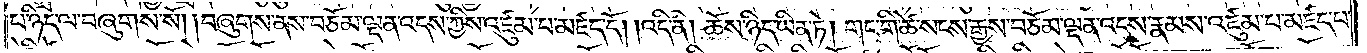པ་ཉིད་ལ་བཞུགས་སོ། །བཞུགས་ནས་བཅོམ་ལྡན་འདས་ཀྱིས་འཛུམ་པ་མཛད་དོ། །འདི་ནི། ཆོས་ཉིད་ཡིན་ཏེ། གང་གི་ཚེ་སངས་རྒྱས་བཅོམ་ལྡན་འདས་རྣམས་འཛུམ་པ་མཛད་པ་
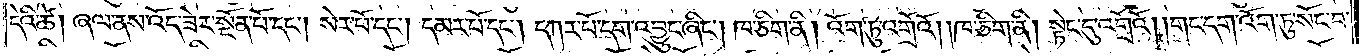དེའི་ཚེ། ཞལ་ནས་འོད་ཟེར་སྔོན་པོ་དང༌། སེར་པོ་དང༌། དམར་པོ་དང༌། དཀར་པོ་དག་འབྱུང་ཞིང༌། ཁ་ཅིག་ནི། འོག་ཏུ་འགྲོའོ། །ཁ་ཅིག་ནི། སྟེང་དུ་འགྲོའོ། །གང་དག་འོག་ཏུ་སོང་བ་
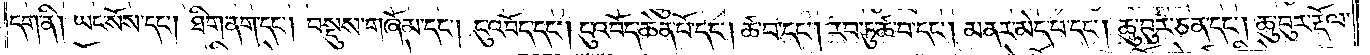དག་ནི། ཡང་སོས་དང༌། ཐིག་ནག་དང༌། བསྡུས་གཞོམ་དང༌། ངུ་འབོད་དང༌། ངུ་འབོད་ཆེན་པོ་དང༌། ཚ་བ་དང༌། རབ་ཏུ་ཚ་བ་དང༌། མནར་མེད་པ་དང༌། ཆུ་བུར་ཅན་དང༌། ཆུ་བུར་རྡོལ་
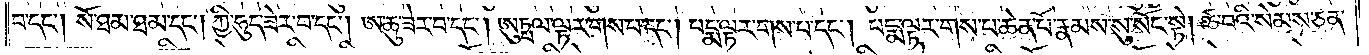བ་དང༌། སོ་ཐམ་ཐམ་དང༌། ཀྱི་ཧུད་ཟེར་བ་དང༌། ཨ་ཆུ་ཟེར་བ་དང༌། ཨུཏྤལ་ལྟར་གས་པ་དང༌། པདྨ་ལྟར་གས་པ་དང༌། པདྨ་ལྟར་གས་པ་ཆེན་པོ་རྣམས་སུ་སོང་སྟེ། ཚ་བའི་སེམས་ཅན་
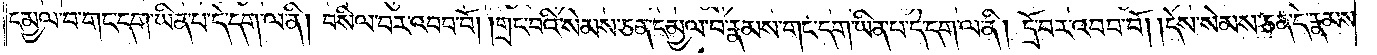དམྱལ་བ་གང་དག་ཡིན་པ་དེ་དག་ལ་ནི། བསིལ་བར་འབབ་བོ། །གྲང་བའི་སེམས་ཅན་དམྱལ་བ་རྣམས་གང་དག་ཡིན་པ་དེ་དག་ལ་ནི། དྲོ་བར་འབབ་བོ། །དེས་སེམས་ཅན་དེ་རྣམས་
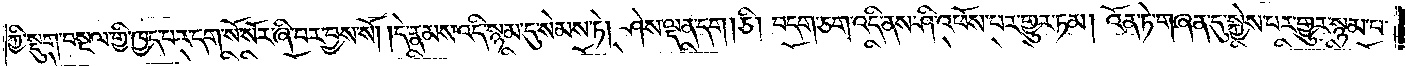ཀྱི་སྡུག་བསྔལ་གྱི་ཁྱད་པར་དག་སོ་སོར་ཞི་བར་བྱས་སོ། །དེ་རྣམས་འདི་སྙམ་དུ་སེམས་ཏེ། ཤེས་ལྡན་དག །ཅི། བདག་ཅག་འདི་ནས་ཤི་འཕོས་པར་གྱུར་ཏམ། འོན་ཏེ་གཞན་དུ་སྐྱེས་པར་གྱུར་སྙམ་པ་
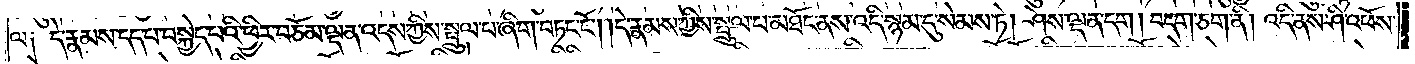ལ༑ དེ་རྣམས་དད་པ་བསྐྱེད་པའི་ཕྱིར་བཅོམ་ལྡན་འདས་ཀྱིས་སྤྲུལ་པ་ཞིག་བཏང་ངོ༌། །དེ་རྣམས་ཀྱིས་སྤྲུལ་པ་མཐོང་ནས་འདི་སྙམ་དུ་སེམས་ཏེ། ཤེས་ལྡན་དག །བདག་ཅག་ནི། འདི་ནས་ཤི་འཕོས་
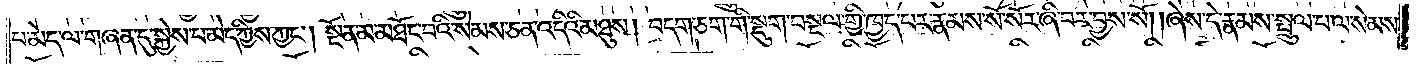པ་མེད་ལ་གཞན་དུ་སྐྱེས་པ་མེད་ཀྱིས་ཀྱང༌། སྔོན་མ་མཐོང་བའི་སེམས་ཅན་འདིའི་མཐུས། བདག་ཅག་གི་སྡུག་བསྔལ་གྱི་ཁྱད་པར་རྣམས་སོ་སོར་ཞི་བར་བྱས་སོ། །ཞེས་དེ་རྣམས་སྤྲུལ་པ་ལ་སེམས་
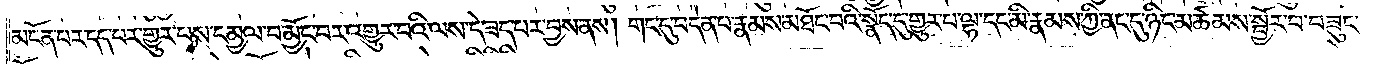མངོན་པར་དད་པར་གྱུར་པས་དམྱལ་བ་མྱོང་བར་འགྱུར་བའི་ལས་དེ་ཟད་པར་བྱས་ནས། གང་དུ་བདེན་པ་རྣམས་མཐོང་བའི་སྣོད་དུ་གྱུར་པ་ལྷ་དང་མི་རྣམས་ཀྱི་ནང་དུ་ཉིང་མཚམས་སྦྱོར་བ་བཟུང་
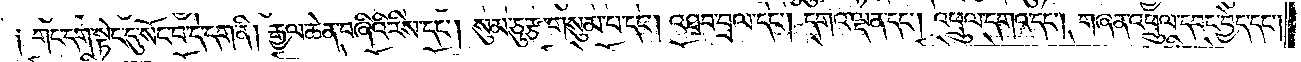གང་དག་སྟེང་དུ་སོང་བ་དེ་དག་ནི། རྒྱལ་ཆེན་བཞིའི་རིས་དང༌། སུམ་ཅུ་རྩ་གསུམ་པ་དང༌། འཐབ་བྲལ་དང༌། དགའ་ལྡན་དང༌། འཕྲུལ་དགའ་དང༌། གཞན་འཕྲུལ་དབང་བྱེད་དང༌།
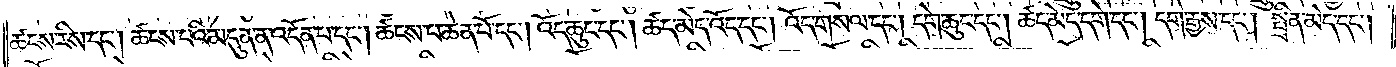ཚངས་རིས་དང༌། ཚངས་པའི་མདུན་ན་འདོན་པ་དང༌། ཚངས་པ་ཆེན་པོ་དང༌། འོད་ཆུང་དང༌། ཚད་མེད་འོད་དང༌། འོད་གསལ་བ་དང༌། དགེ་ཆུང་དང༌། ཚད་མེད་དགེ་དང༌། དགེ་རྒྱས་དང༌། སྤྲིན་མེད་དང༌།
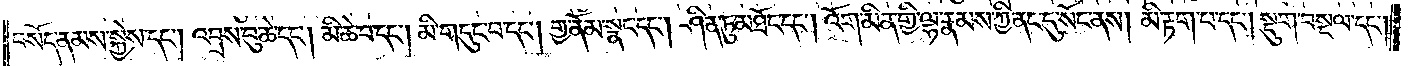བསོད་ནམས་སྐྱེས་དང༌། འབྲས་བུ་ཆེ་དང༌། མི་ཆེ་བ་དང༌། མི་གདུང་བ་དང༌། གྱ་ནོམ་སྣང་དང༌། ཤིན་ཏུ་མཐོང་དང༌། འོག་མིན་གྱི་ལྷ་རྣམས་ཀྱི་ནང་དུ་སོང་ནས། མི་རྟག་པ་དང༌། སྡུག་བསྔལ་དང༌།
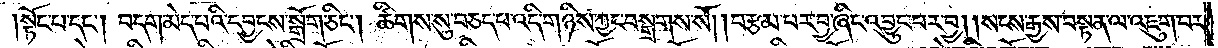སྟོང་པ་དང༌། བདག་མེད་པའི་དབྱངས་སྒྲོག་ཅིང༌། ཚིགས་སུ་བཅད་པ་འདི་གཉིས་ཀྱང་བསྒྲགས་སོ། །བརྩམ་པར་བྱ་ཞིང་འབྱུང་བར་བྱ། །སངས་རྒྱས་བསྟན་ལ་འཇུག་པར་
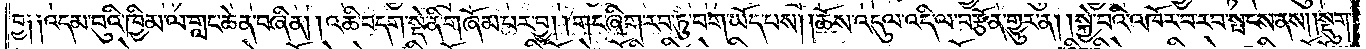བྱ༏ ༏འདམ་བུའི་ཁྱིམ་ལ་གླང་ཆེན་བཞིན། །འཆི་བདག་སྡེ་ནི་གཞོམ་པར་བྱ། །གང་ཞིག་རབ་ཏུ་བག་ཡོད་པས། །ཆོས་འདུལ་འདི་ལ་བརྩོན་གྱུར་ན། །སྐྱེ་བའི་འཁོར་བ་རབ་སྤངས་ནས། །སྡུག་
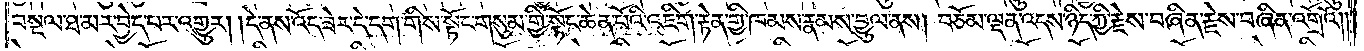བསྔལ་ཐ་མར་བྱེད་པར་འགྱུར། །དེ་ནས་འོད་ཟེར་དེ་དག་གིས་སྟོང་གསུམ་གྱི་སྟོང་ཆེན་པོའི་འཇིག་རྟེན་གྱི་ཁམས་རྣམས་བྱུལ་ནས། བཅོམ་ལྡན་འདས་ཉིད་ཀྱི་རྗེས་བཞིན་རྗེས་བཞིན་འགྲོའོ༎
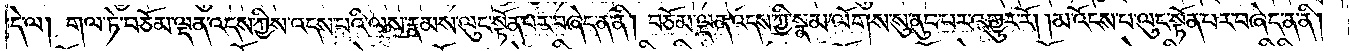དེ་ལ། གལ་ཏེ་བཅོམ་ལྡན་འདས་ཀྱིས་འདས་པའི་ལས་རྣམས་ལུང་སྟོན་པར་བཞེད་ན་ནི། བཅོམ་ལྡན་འདས་ཀྱི་སྣམ་ལོགས་སུ་ནུབ་པར་འགྱུར་རོ། །མ་འོངས་པ་ལུང་སྟོན་པར་བཞེད་ན་ནི།
